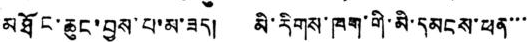མཐོང་ཆུང་བྱས་པ་མ་ཟད། མི་རིགས་ཁག་གི་མི་དམངས་ཕན་་་
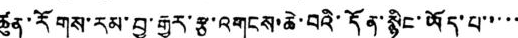ཚུན་རོགས་རམ་བྱ་རྒྱུར་རྩ་འགངས་ཆེ་བའི་དོན་སྙིང་ཡོད་པ་་་་་
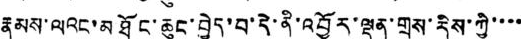རྣམས་ལའང་མཐོང་ཆུང་བྱེད་པ་དེ་ནི་འབྱོར་ལྡན་གྲས་རིས་ཀྱི་་་་
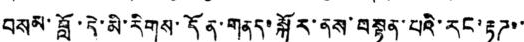བསམ་བློ་དེ་མི་རིགས་དོན་གནད་སྐོར་ནས་བསྟན་པའི་རང་རྟཌ་་
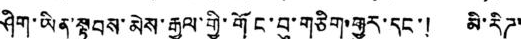ཤིག་ཡིན་སྟབས་མེས་རྒྱལ་གྱི་གོང་བུ་གཅིག་གྱུར་དང་། མི་རིཌ་
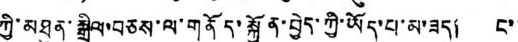ཀྱི་མཐུན་སྒྲིལ་བཅས་ལ་གནོད་སྐྱོན་བྱེད་ཀྱི་ཡོད་པ་མ་ཟད། ང་་
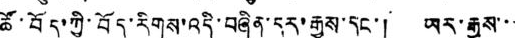ཚོ་བོད་ཀྱི་བོད་རིགས་འདི་བཞིན་དར་རྒྱས་དང་། ཡར་རྒྱས་་
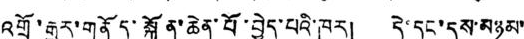འགྲོ་རྒྱུར་གནོད་སྐྱོན་ཆེན་པོ་བྱེད་པའི་ཁར། དེ་དང་དུས་མཉམ་
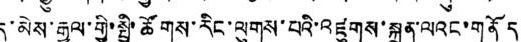དུ་མེས་རྒྱལ་གྱི་སྤྱི་ཚོགས་རིང་ལུགས་པའི་འཛུགས་སྐྲུན་ལའང་གནོད
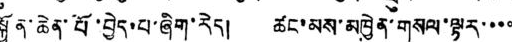སྐྱོན་ཆེན་པོ་བྱེད་པ་ཞིག་རེད། ཚང་མས་མཁྱེན་གསལ་ལྟར་་་་
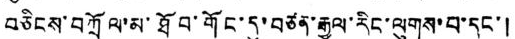བཅིངས་བཀྲོལ་མ་ཐོབ་གོང་དུ་བཙན་རྒྱལ་རིང་ལུགས་པ་དང་།
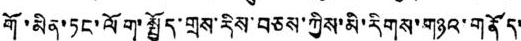གོ་མིན་ཏང་ལོག་སྤྱོད་གྲས་རིས་བཅས་ཀྱིས་མི་རིགས་གཉའ་གནོད་
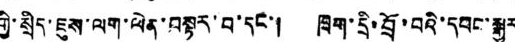གྱི་སྲིད་ཇུས་ལག་ལེན་བསྟར་བ་དང་། ཁྲག་དྲི་བྲོ་བའི་དབང་སྒྱུར
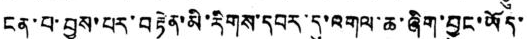ངན་པ་བྱས་པར་བརྟེན་མི་རིགས་དབར་དུ་འགལ་ཆ་ཞིག་བྱུང་ཡོད་
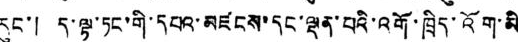རུང་། ད་ལྟ་ཏང་གི་དཔའ་མཛངས་དང་ལྡན་པའི་འགོ་ཁྲིད་འོག་མི
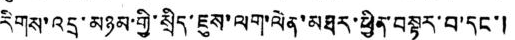རིགས་འདྲ་མཉམ་གྱི་སྲིད་ཇུས་ལག་ལེན་མཐར་ཕྱིན་བསྟར་བ་དང་།
